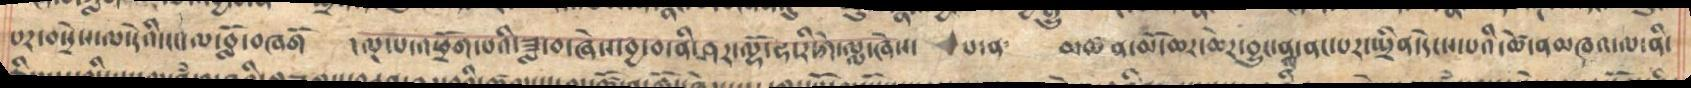པར་བསྲེས་ལ་དེའི་ངང་ལ་བློ་བཞགོ   ་ལྔ་པ་འཕྲོག་པའི་ཟླ་བ་ཞེས་བྱ་བ་ནི་ཤར་ལྷོ་ཧ་རི་ཀེ་ལླ་ཞེས་   པ་ན་   མཚན་མོ་ཆར་ཆེར་བྱུང་ནས་ནང་པར་སྤྲིན་དེངས་པའི་ཚེ་ནམཁའལ་ནི་
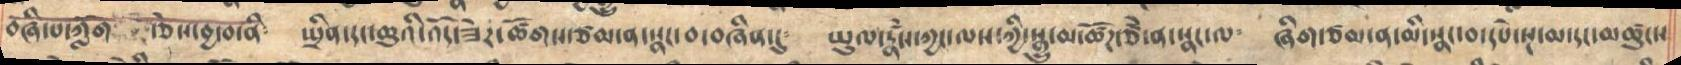བཞི་པ་ཀློག ་ཅེས་བྱ་བ་ནི༴ སྤྲིན་དང་ཆུའི་འོད་ཟེར་ཚོགས་ཙམ་ན་སྣང་བ་བཞིན་དུ༴ ཡུལ་རྣཾས་ཀྱང་ལས་ཀྱི་སྒྱུ་མ་ཚོཌ་ཙཾ་ན་སྣང་ལ༴ ཞིག་ཙམ་ན་མི་སྣང་བ་དཔེ་སྔ་མ་དང་མཚུངས
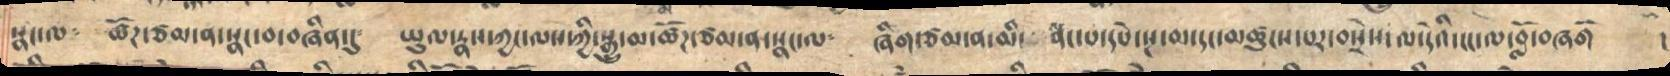སྣང་ལ༴ ཚོཌ་ཙམ་ན་སྣང་བ་བཞིན་དུ༴ ཡུལ་རྣས་ཀྱང་ལས་ཀྱི་སྒྱུ་མ་ཚོཌ་ཙམ་ན་སྣང་ལ༴ ཞིག་ཙམ་ན་མི་ སྣང་པ་དཔེ་སྔ་མ་དང་མཚུངས་པར་བསྲེས་ལ་དེའི་ངང་ལ་བློ་བཞགོ །
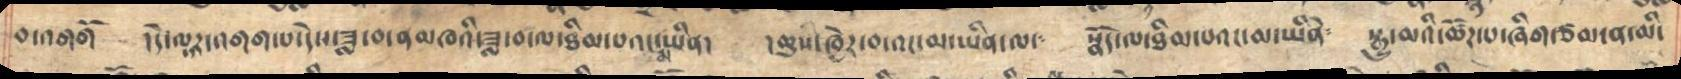བ་འགགོ   །དེ་ལྟར་འགག་པ་དེས་ཟླ་བ་ནམཁའི་ཟླ་བ་ལ་ཐིམ་པའང་མ་ཡིན།  །ཆུས་ཁྱེར་བ་འང་མ་ཡིན་ལ༴  སྣོད་ལ་ཐིམ་པའང་མ་ཡིནེ༴  སྒྱུ་མའི་ཚོཌ་པ་ཞིག་ཙམ་ན་མི་
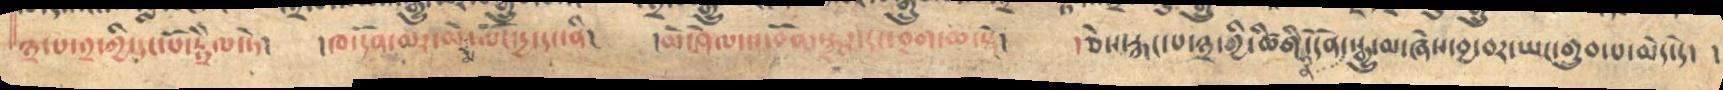༣་པ་༢་ཀྱི་དང་པོ་རྟྲེལ་ཏེ།  །ཁ་དོན་མར་མེ་ལོོངསྱ་དང་ནི།  །མེ་ཤེལ་ས་བོན་སྒྱུར་དང་་བྲག་ཆ་སྟེ།   །ཅེས་རྐང་པ་༣་གྱི་ཚིགི་དོན་ནི་སྒྱུ་མ་ཞེས་བྱ་བར་ཡང་གྲུབ་པ་མེད་དེ།  །
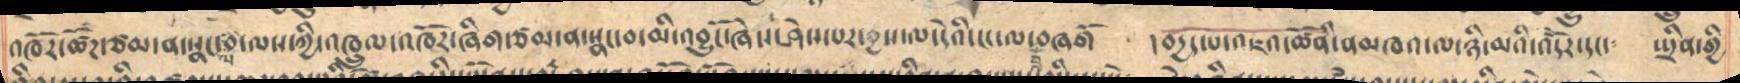འཁོར་ཚོཌ་ཙམ་ན་སྣང་ལ་ལས་ཀྱི་འཁྲུལ་འཁོར་ཞིག་ཙམ་ན་སྣང་བ་མི་འབྱུངོ་ཞེས་ཤེས་རབ་པར་བྱས་ལ་དེའི་ངང་ལ་བྲོ་བཞགོ  །བདྱད་པ་འཇའ་ཚོནི་ནམཁའ་ལ་ཉི་མའི་འོེདར་དང་༴  སྤྲིན་གྱི
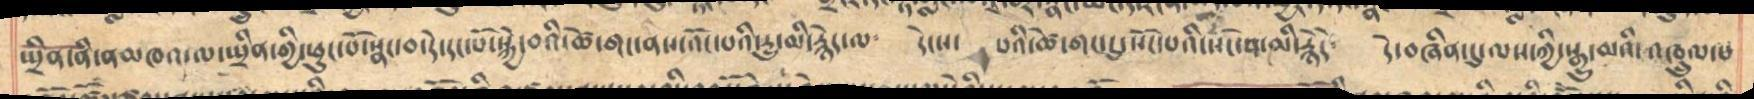སྤྲིན་ནི་ནམཁའ་ལ་སྤིན་གྱི་ཕུང་པོ་སྣང་བ་དེ་དང་པོ་སྐྱེ་བའི་ཚེ་གང་ནས་འོང་པའི་རྱུ་མི་རྙེད་ལ༴  དེངས་  པའི་ཚེ་གང་དུ་སོང་པའི་སོང་པ་མི་རྙེདོ༴  དེ་བཞིན་དུ་ལས་ཀྱི་སྒྱུ་མའི་འཁྲུལ་པ
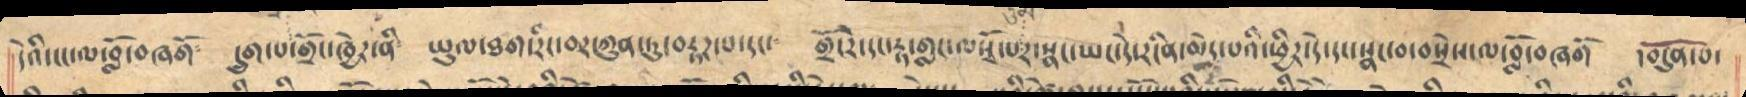དེའི་ངང་ལ་བློ་བཞགོ   དྲུག་པ་གྲོང་ཁྱེར་ནི   ཡུལ་ཐག་རིང་བར་ཀུན་ཏུ་བརྟཌ་པ་དང་   གྲོེངར་དང་རྟ་དང་གླང་ལསྭོ་པར་སྣང་ཡང་དེ་རངིན་མེད་པའི་ཕྱིར་དེ་དང་སྣང་བ་བསྲེས་ལ་བློ་བཞགོ   ་བདུན་པ་
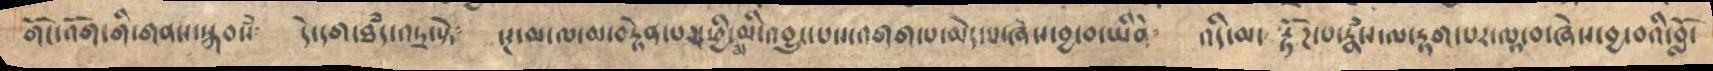གོང་འོག་གི་གནས་སྐབསཾ༴  དེ་དག་ཐཾད་འདྲ་སྟེ༴  སྔ་མ་ལ་མ་བརྟེན་པར་ཕྱི་མ་མི་འབྱུང་པས་འགག་པ་མེད་པ་ཞེས་བྱ་བ་ཡིནེ༴   འདི་མ་  རྟོཌ་པ་རྣཾས་ལ་རྟག་པར་ལྟ་བ་ཞེས་བྱ་བའི་བློ་
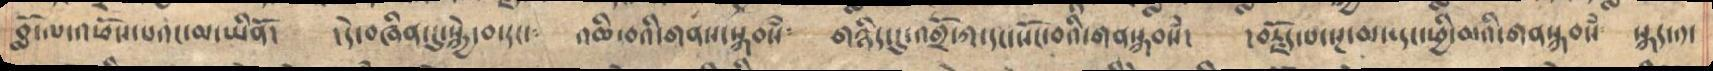བློ་ལ་འཕོས་པའང་མ་ཡིནོ། །དེ་བཞིན་དུ་སྐྱེ་བ་དང་༴ འཆི་བའི་གནས་སྐབས༴ གཉིད་དུ་འགྲོ་ཀ་དང་སོང་བའི་གནསྐབས། །བརྗོད་པ་སྔ་མ་དང་ཕྱི་མའི་གནསྐབས༴ སྐད་༡་
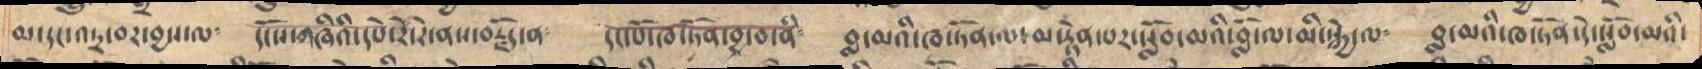མ་དང་འདྲ་བར་བྱས་ལ༴ དངོས་གཞིའི་དཔེ་རེ་རེ་ནས་བརྗོད་ན༴ དང་པོ་ཁ་ཏོན་བྱ་བ་ནི༴ བླ་མའི་ཁ་ཏོན་ལ་མ་རྟེན་པར་སློབ་མའི་བསློ་ལ་མི་སྐྱེ་ལ༴ བླ་མའི་ཁ་ཏོན་དེ་སློབ་མའི་
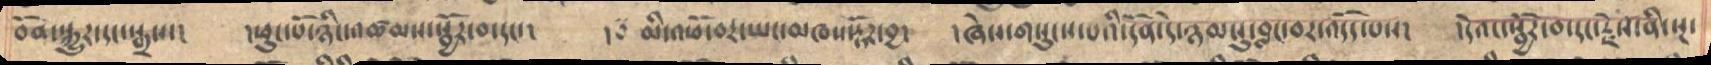བོན་སྐྱུར་དང་སྒྲས་། །ཕུང་པོ་ཉིང་འཚམས་སྦྱོར་བ་དང་། ། མི་འཕོ་བར་ཡང་མཁས་སྟོཌ་བྱ། །ཞེས་གསུང་པའི་དོན་དེ་ཉམས་སུ་བླང་བར་འདོད་པས། །དེའང་སྦྱོར་བ་དང་རྗེས་ནི་སྔ་
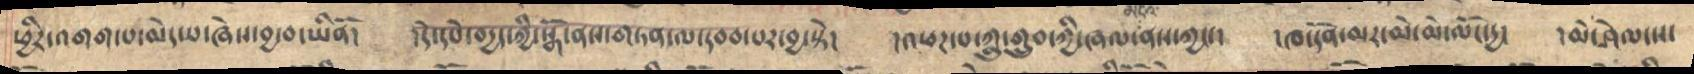ཕྱིར་འགག་པ་མེད་པ་ཞེས་བྱ་བ་ཡིནོ།  །དེ་དཔེ་བདྱད་ཀྱི་སྒོ་ནས་གཏན་ལ་དབབ་པར་བྱ་སྟེ།   །འཕཌ་པ་ཀླུ་གྲུབ་ཀྱི་ཞལ་ནས་ཀྱང་།  །ཁ་དོན་མར་མེ་མེ་ལོང་དྱ།   །མེ་ཤེལ་ས་
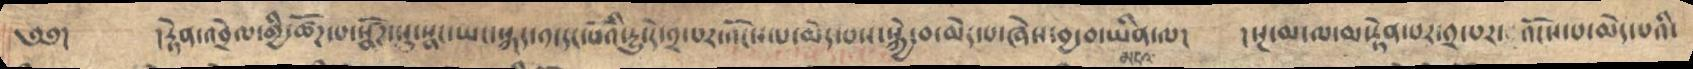༄༅།  །རྟེན་འབྲེལ་གྱི་ཚོཌ་པ་སྣོ༹ཌ་སུ་སྣང་ཡང་སྐད་༡་དང་པོའི་དྱུ་དེ་༢་པར་འོངས་པ་མེད་པས་སྐྱེ་བ་མེད་པ་ཞེས་བྱ་བ་ཡིན་ལ།  །སྔ་མ་ལ་མ་རྟེན་པར་༡་པར་འོངས་པ་མེད་པའི་
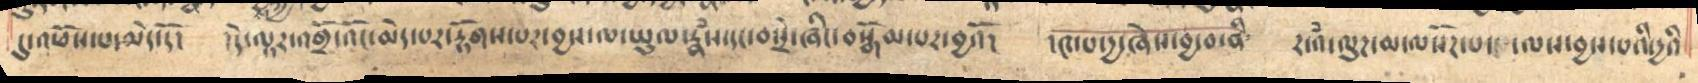དུ་འཕོས་པ་མེད་དོ། །དེ་ལྟར་འགྲོ་འོང་མེད་པར་རྟོགས་པར་བྱས་ལ་ཡུལ་རྣཾས་དང་བསྲེ་ཞིང་བསྒོམ་པར་བྱའོ། །༩་པ་དྱ་ཞེས་བྱ་བ་ནི ར་འཾ་ལུཌ་མ་ལསོཌ་པ་ ་ལས་བྱས་པའི་དྱའི
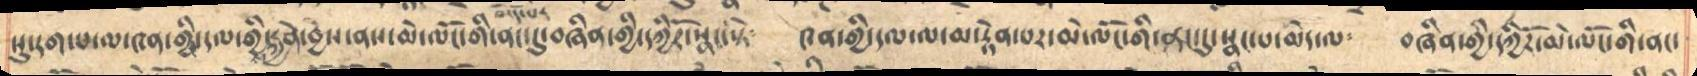སུ་དག་པ་ལ་༤ན་གྱི་དལ་གྱི་རྐྱེན་བྱེས་ནས་མེ་ལོང་གི་ནང་དུ་བཞིན་གྱི་དཀྱིརོ་སྣང་སྟེ༴   ༤ན་གྱི་དལ་ལ་བ་རྟེན་པར་མེ་ལོང་གི་ནང་དུ་སྣང་པ་མེད་ལ༴   བཞིན་གྱི་དཀྱོར་མེ་ལོང་གི་ནང་
